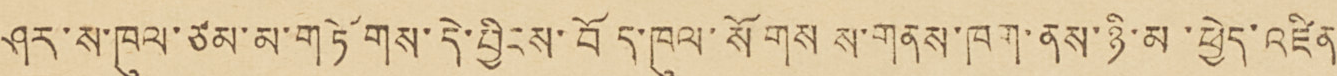ཤར་ས་ཁུལ་ཙམ་མ་གཏོགས་དེ་བྱིངས་བོད་ཁུལ་སོགས ས་གནས་ཁག་ནས་ཉི་མ་ཕྱེད་འཛིན་་
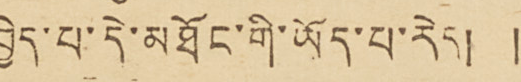བྱེད་པ་དེ་མཐོང་གི་ཡོད་པ་རེད། །
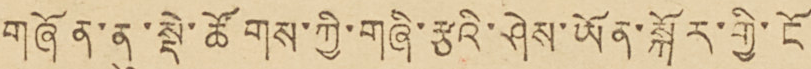གཞོན་ནུ་སྡེ་ཚོགས་ཀྱི་གཞི་རྩའི་ཤེས་ཡོན་སྐོར་གྱི་ངོ་སྤྲོད།
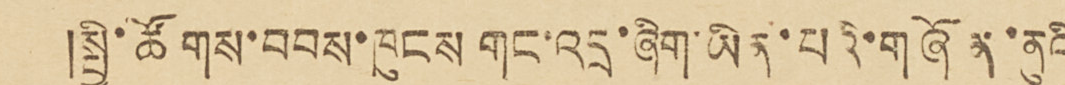༄༅། །སྤྱི་ཚོགས་བབས་ཁུངས་གང་འདྲ་ཞིག་ཡིན་པའི་གཞོན་ནུའི་
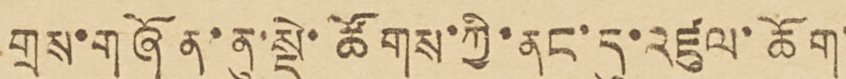གྲས་གཞོན་ནུ་སྡེ་ཚོགས་ཀྱི་ནང་དུ་འཛུལ་ཆོག་
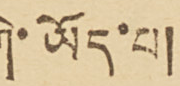གི་ཡོད་པ།
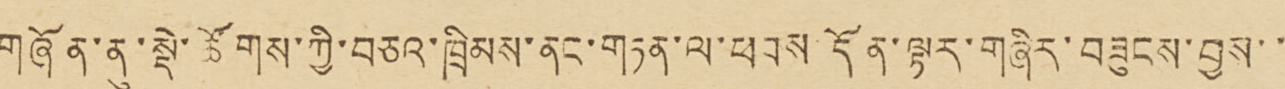གཞོན་ནུ་སྡེ་ཚོགས་ཀྱི་བཅའ་ཁྲིམས་ནང་གཏན་ལ་ཕབས དོན་ལྟར་གཞིར་བཟུངས་བྱས་་་
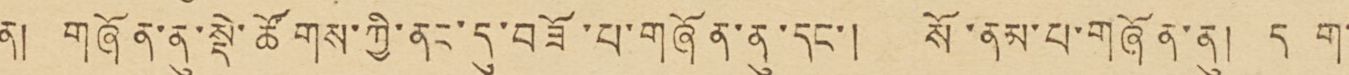ན། གཞོན་ནུ་སྡེ་ཚོགས་ཀྱི་ནང་དུ་བཟོ་པ་གཞོན་ནུ་དང་། སོ་ནམ་པ་གཞོན་ནུ། དག་་
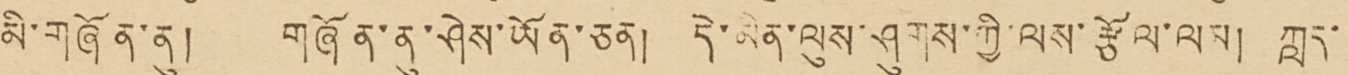མི་གཞོན་ནུ། གཞོན་ནུ་ཤེས་ཡོན་ཅན། དེ་མིན་ལུས་ཤུགས་ཀྱི་ལས་རྩོལ་ལམ། ཀླད་་་
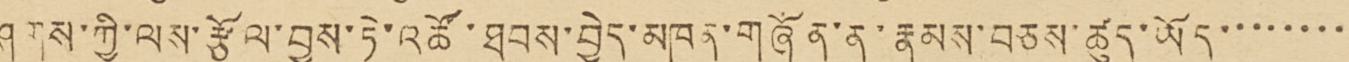ཤུགས་ཀྱི་ལས་རྩོལ་བྱས་ཏེ་འཚོ་ཐབས་བྱེད་མཁན་གཞོན་ནུ་རྣམས་བཅས་ཚུད་ཡོད་་་་་་་་་
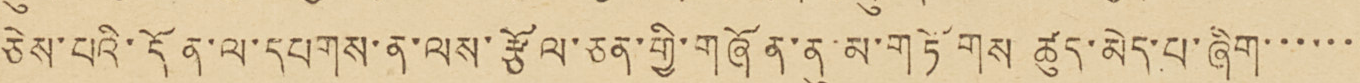ཅེས་པའི་དོན་ལ་དཔགས་ན་ལས་རྩོལ་ཅན་གྱི་གཞོན་ནུ་མ་གཏོགས ཚུད་མེད་པ་ཞིག་་་་་་་
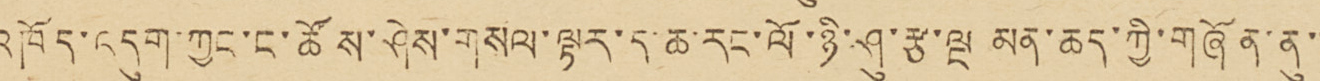འཁོད་འདུག་ཀྱང་ང་ཚོས་ཤེས་གསལ་ལྟར་ད་ཆ་རང་ལོ་ཉི་ཤུ་རྩ་ལྔ མན་ཆད་ཀྱི་གཞོན་ནུ་་་
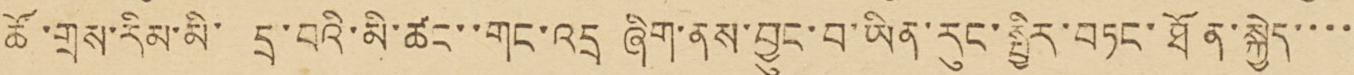ཚོ་གྲས་རིམ་མི་དྲ་བའི་མི་ཚང་་གང་འདྲ ཞིག་ནས་བྱུང་བ་ཡིན་རུང་སྤྱིར་བཏང་ཐོན་སྐྱེད་་་་་
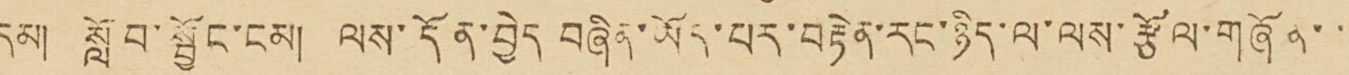དམ། སློབ་སྦྱོང་ངམ། ལས་དོན་བྱེད བཞིན་ཡོད་པར་བརྟེན་རང་ཉིད་ལ་ལས་རྩོལ་གཞོན་་་
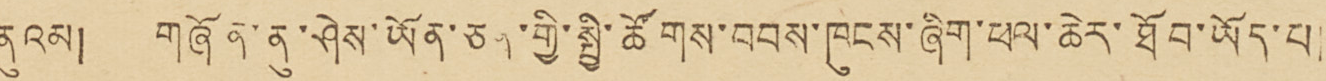ནུའམ། གཞོན་ནུ་ཤེས་ཡོན་ཅན་གྱི་སྤྱི་ཚོགས་བབས་ཁུངས་ཞིག་ཕལ་ཆེར་ཐོབ་ཡོད་པ།
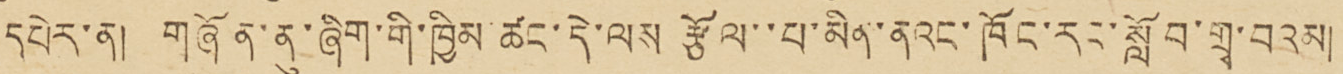དཔེར་ན། གཞོན་ནུ་ཞིག་གི་ཁྱིམ ཚང་དེ་ལས རྩོལ་་པ་མིན་ནའང་ཁོང་རང་སློབ་གྲྭ་བའམ།
